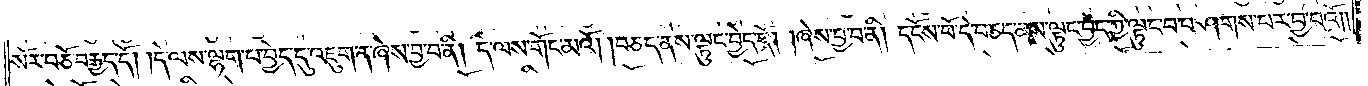སོར་བཅོ་བརྒྱད་དོ། །དེ་ལས་ལྷག་པ་བྱེད་དུ་འཇུག་ན་ཞེས་བྱ་བ་ནི། དེ་ལས་གོང་མའོ། །བཅད་ནས་ལྟུང་བྱེད་དོ། །ཞེས་བྱ་བ་ནི། དངོས་པོ་དེ་བཅད་ནས་ལྟུང་བྱེད་ཀྱི་ལྟུང་བ་བཤགས་པར་བྱ་བའོ༎
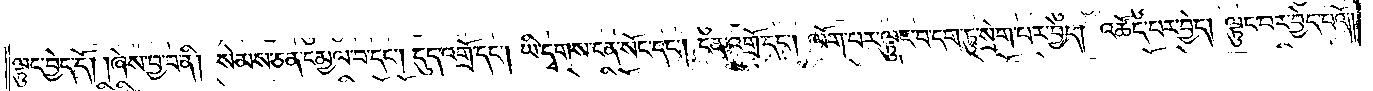ལྟུང་བྱེད་དོ། །ཞེས་བྱ་བ་ནི། སེམས་ཅན་དམྱལ་བ་དང༌། དུད་འགྲོ་དང༌། ཡི་དྭགས་ངན་སོང་དང༌། ངན་འགྲོ་དང༌། ལོག་པར་ལྟུང་བ་དག་ཏུ་སྲེག་པར་བྱེད། འཚོད་པར་བྱེད། ལྟུང་བར་བྱེད་པའོ༎
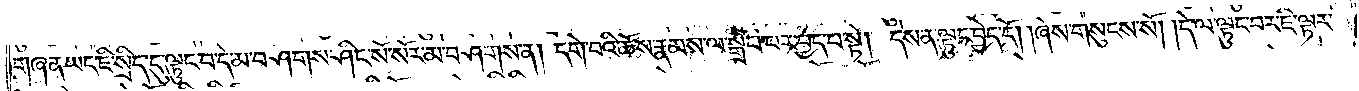གཞན་ཡང་ཇི་སྲིད་དུ་ལྟུང་བ་དེ་མ་བཤགས་ཤིང་སོ་སོར་མ་བཤགས་ན། དགེ་བའི་ཆོས་རྣམས་ལ་སྒྲིབ་པར་བྱེད་པ་སྟེ། དེས་ན་ལྟུང་བྱེད་དོ། །ཞེས་གསུངས་སོ། །དེ་ལ་ལྟུང་བར་ཇི་ལྟར་
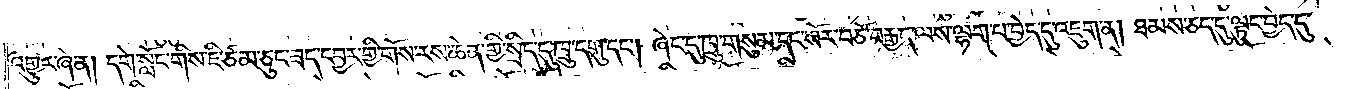འགྱུར་ཞེ་ན། དགེ་སློང་གིས་ཇི་ཙམ་ཅུང་ཟད་དབྱར་གྱི་གོས་རས་ཆེན་གྱི་སྲིད་དུ་ཁྲུ་དགུ་དང༌། ཞེང་དུ་ཁྲུ་གསུམ་དང་སོར་བཅོ་བརྒྱད་ལས་ལྷག་པ་བྱེད་དུ་འཇུག་ན། ཐམས་ཅད་དུ་ལྟུང་བྱེད་དུ་
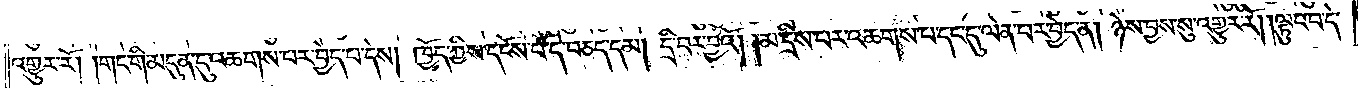འགྱུར་རོ། །གང་གི་མདུན་དུ་འཆགས་པར་བྱེད་པ་དེས། ཁྱོད་ཀྱིས་དངོས་པོ་དེ་བཅད་དམ། དྲི་བར་བྱའོ། །མ་དྲིས་པར་འཆགས་པ་དང་དུ་ལེན་པར་བྱེད་ན། ཉེས་བྱས་སུ་འགྱུར་རོ། །ལྟུང་བ་དེ་
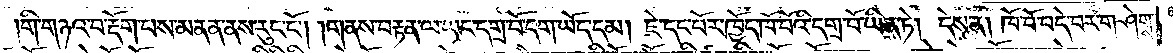གི་གཉའ་བ་རྡོག་པས་མནན་ནས་རུང་ངོ༌། །གནས་བརྟན་ལ་ཡང་དགྲ་བོ་དག་ཡོད་དམ། ཇེ་དང་པོར་ཁྱོད་ཁོ་བོའི་དགྲ་བོ་ཡིན་ཏེ། དེས་ན། ཁོ་བོ་བདེ་བར་གཤེགས་
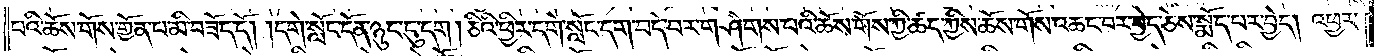པའི་ཆོས་གོས་གྱོན་པ་མི་བཟོད་དོ། །དགེ་སློང་དོན་ཉུང་ངུ་དག །ཅིའི་ཕྱིར་དགེ་སློང་དག་བདེ་བར་གཤེགས་པའི་ཆོས་གོས་ཀྱི་ཚད་ཀྱིས་ཆོས་གོས་འཆང་བར་བྱེད་ཅེས་སྨོད་པར་བྱེད། འཕྱར་
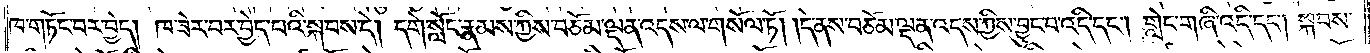ཁ་གཏོང་བར་བྱེད། ཁ་ཟེར་བར་བྱེད་པའི་སྐབས་དེ། དགེ་སློང་རྣམས་ཀྱིས་བཅོམ་ལྡན་འདས་ལ་གསོལ་ཏོ། །དེ་ནས་བཅོམ་ལྡན་འདས་ཀྱིས་བྱུང་བ་འདི་དང༌། གླེང་གཞི་འདི་དང༌། སྐབས་
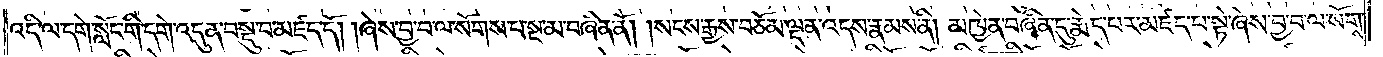འདི་ལ་དགེ་སློང་གི་དགེ་འདུན་བསྡུ་བ་མཛད་དོ། །ཞེས་བྱ་བ་ལ་སོགས་པ་སྔ་མ་བཞིན་ནོ། །སངས་རྒྱས་བཅོམ་ལྡན་འདས་རྣམས་ནི། མཁྱེན་བཞིན་དུ་རྨེད་པར་མཛད་པ་སྟེ་ཞེས་བྱ་བ་ལ་སོགས་
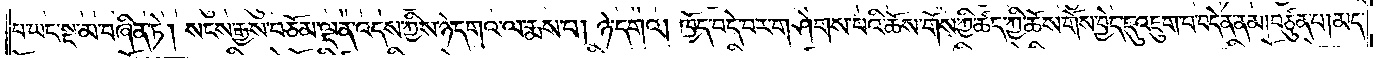པ་ཡང་སྔ་མ་བཞིན་ཏེ། སངས་རྒྱས་བཅོམ་ལྡན་འདས་ཀྱིས་ཉེ་དགའ་ལ་རྨས་པ། ཉེ་དགའ། ཁྱོད་བདེ་བར་གཤེགས་པའི་ཆོས་གོས་ཀྱི་ཚད་ཀྱི་ཆོས་གོས་བྱེད་དུ་འཇུག་པ་བདེན་ནམ། བཙུན་པ། མད་
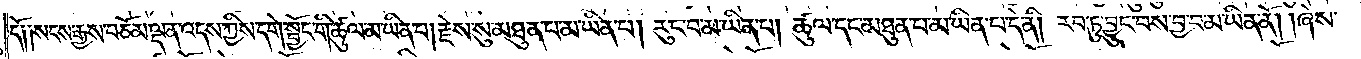དོ༑༑སངས་རྒྱས་བཅོམ་ལྡན་འདས་ཀྱིས་དགེ་སྦྱོང་གི་ཚུལ་མ་ཡིན་པ། རྗེས་སུ་མཐུན་པ་མ་ཡིན་པ། རུང་བ་མ་ཡིན་པ། ཚུལ་དང་མཐུན་པ་མ་ཡིན་པ་དེ་ནི། རབ་ཏུ་བྱུང་བས་བྱ་བ་མ་ཡིན་ནོ། །ཞེས་
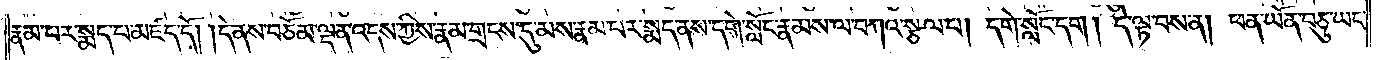རྣམ་པར་སྨད་པ་མཛད་དོ། །དེ་ནས་བཅོམ་ལྡན་འདས་ཀྱིས་རྣམ་གྲངས་དུ་མས་རྣམ་པར་སྨད་ནས་དགེ་སློང་རྣམས་ལ་བཀའ་སྩལ་པ། དགེ་སློང་དག །དེ་ལྟ་བས་ན། ཕན་ཡོན་བཅུ་ཡང་
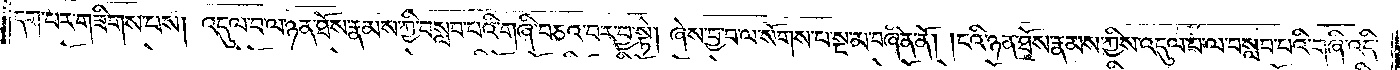དག་པར་གཟིགས་པས། འདུལ་བ་ལ་ཉན་ཐོས་རྣམས་ཀྱི་བསླབ་པའི་གཞི་བཅའ་བར་བྱ་སྟེ། ཞེས་བྱ་བ་ལ་སོགས་པ་སྔ་མ་བཞིན་ནོ། །ངའི་ཉན་ཐོས་རྣམས་ཀྱིས་འདུལ་བ་ལ་བསླབ་པའི་གཞི་འདི་
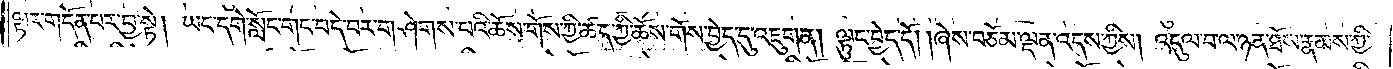ལྟར་གདོན་པར་བྱ་སྟེ། ཡང་དགེ་སློང་གང་བདེ་བར་གཤེགས་པའི་ཆོས་གོས་ཀྱི་ཚད་ཀྱི་ཆོས་གོས་བྱེད་དུ་འཇུག་ན། ལྟུང་བྱེད་དོ། །ཞེས་བཅོམ་ལྡན་འདས་ཀྱིས། འདུལ་བ་ལ་ཉན་ཐོས་རྣམས་ཀྱི་
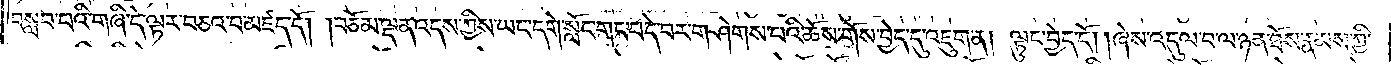བསླབ་པའི་གཞི་དེ་ལྟར་བཅའ་བ་མཛད་དོ། །བཅོམ་ལྡན་འདས་ཀྱིས་ཡང་དགེ་སློང་གང་བདེ་བར་གཤེགས་པའི་ཆོས་གོས་བྱེད་དུ་འཇུག་ན། ལྟུང་བྱེད་དོ། །ཞེས་འདུལ་བ་ལ་ཉན་ཐོས་རྣམས་ཀྱི་
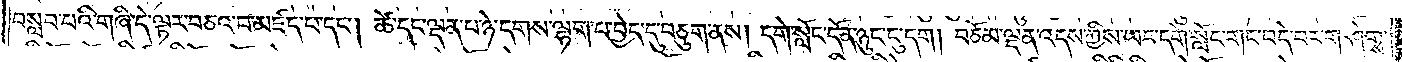བསླབ་པའི་གཞི་དེ་ལྟར་བཅའ་བ་མཛད་པ་དང༌། ཚེ་དང་ལྡན་པ་ཉེ་དགས་ལྷག་པ་བྱེད་དུ་བཅུག་ནས། དགེ་སློང་དོན་ཉུང་ངུ་དག །བཅོམ་ལྡན་འདས་ཀྱིས་ཡང་དགེ་སློང་གང་བདེ་བར་གཤེགས་
